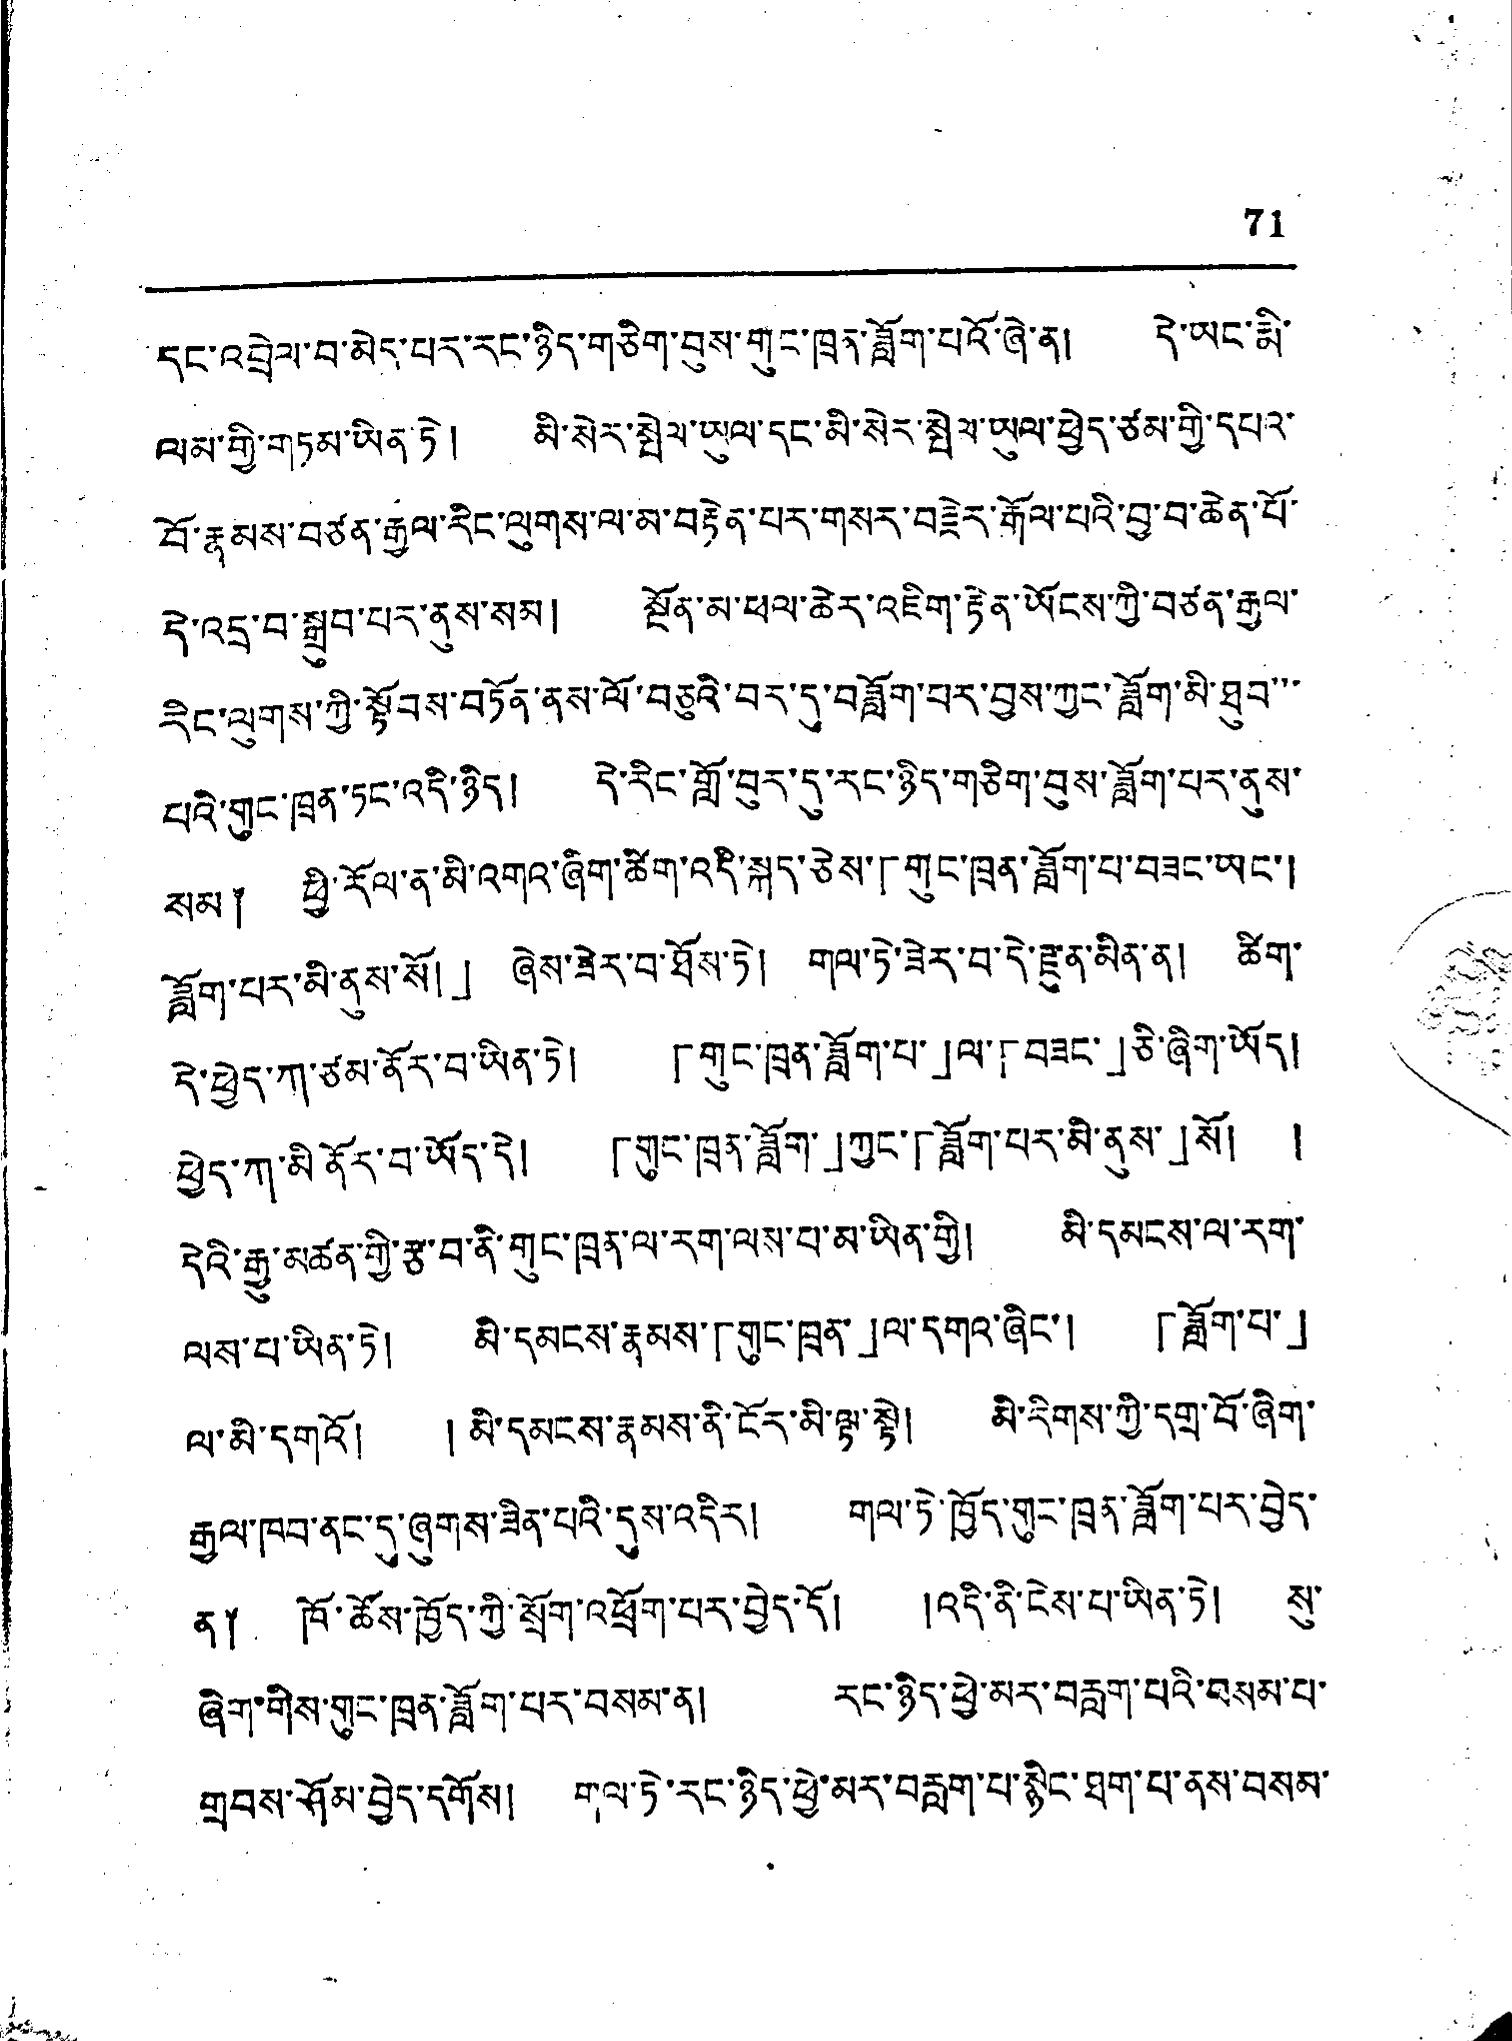71
དང་འབྲེལ་བ་མེད་པར་རང་ཉིད་གཅིག་བུས་གུང་ཁྲན་ཟློག་པའོ་ཞེ་ན། དེ་ཡང་རྨི་
ལམ་གྱི་གཏམ་ཡིན་ཏེ། མི་སེར་སྤེལ་ཡུལ་དང་མི་སེར་སྤེལ་ཡུལ་ཕྱེད་ཙམ་གྱི་དཔའ་
བོ་རྣམས་བཙན་རྒྱལ་རིང་ལུགས་ལ་མ་བརྟེན་པར་གསར་བརྗེར་རྒོལ་པའི་བྱ་བ་ཆེན་པོ་
དེ་འདྲ་བ་སྒྲུབ་པར་ནུས་སམ། སྔོན་མ་ཕལ་ཆེར་འཇིག་རྟེན་ཡོངས་ཀྱི་བཙན་རྒྱལ་
རིང་ལུགས་ཀྱི་སྟོབས་བཏོན་ནས་ལོ་བཅུའི་བར་དུ་བཟློག་པར་བྱས་ཀྱང་ཟློག་མི་ཐུབ་་་
པའི་གུང་ཁྲན་ཏང་འདི་ཉིད། དེ་རིང་གློ་བུར་དུ་རང་ཉིད་གཅིག་བུས་ཟློག་པར་ནུས་
སམ༐ ཕྱི་རོལ་ན་མི་འགའ་ཞིག་ཚིག་འདི་སྐད་ཅེས་「གུང་ཁྲན་ཟློག་པ་བཟང་ཡང་།
ཟློག་པར་མི་ནུས་སོ།」ཞེས་ཟེར་བ་ཐོས་ཏེ། གལ་ཏེ་ཟེར་བ་དེ་རྫུན་མིན་ན། ཚིག་
དེ་ཕྱེད་ཀ་ཙམ་ནོར་བ་ཡིན་ཏེ། 「གུང་ཁྲན་ཟློག་པ་」ལ་「བཟང་」ཅི་ཞིག་ཡོད།
ཕྱེད་ཀྱ་མི ནོར་བ་ཡོད་དེ། 「གུང་ཁྲན་ཟློག་」ཀྱང་「ཟློག་པར་མི་ནུས་」སོ། །
དེའི་རྒྱུ་མཚན་གྱི་རྩ་བ་ནི་གུང་ཁྲན་ལ་རག་ལས་པ་མ་ཡིན་གྱི། མི་དམངས་ལ་རག་
ལས་པ་ཡིན་ཏེ། མི་དམངས་རྣམས་「གུང་ཁྲན་」ལ་དགའ་ཞིང་། 「ཟློག་པ་」
ལ་མི་དགའོ། །མི་དམངས་རྣམས་ནི་ངོར་མི་ལྟ་སྟེ། མི་རིགས་ཀྱི་དགྲ་བོ་ཞིག
རྒྱལ་ཁབ་ནང་དུ་ཞུགས་ཟིན་པའི་དུས་འདིར། གལ་ཏེ་ཁྱོད་གུང་ཁྲན་ཟློག་པར་བྱེད་
ན༐ ཁོ་ཚོས་ཁྱོད་ཀྱི་སྲོག་འཕྲོག་པར་བྱེད་དོ། །འདི་ནི་ངེས་པ་ཡིན་ཏེ། སུ་
ཞིག་གིས་གུང་ཁྲན་ཟློག་པར་བསམ་ན། རང་ཉིད་ཕྱེ་མར་བརླག་པའི་བསམ་པ་
གྲབས་ཤོམ་བྱེད་དགོས། གལ་ཏེ་རང་ཉིད་ཕྱེ་མར་བརླག་པ་སྙིང་ཐག་པ་ནས་བསམ་
